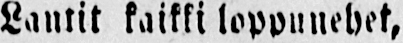Lantit kaikki loppunehet,
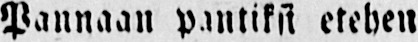Pannaan pantiksi etehen
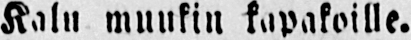Kalu muukin kapakoille.
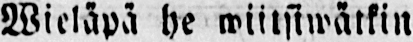Wieläpä he wiilsiwätkin
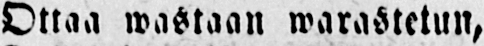Ottaa wastaan warastetun,
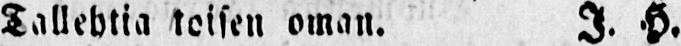Tallehtia toisen oman. I. H.
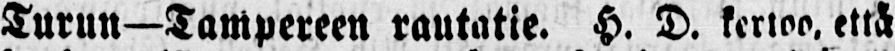Turun—Tampereen rautatie. H. D. kertoo, että
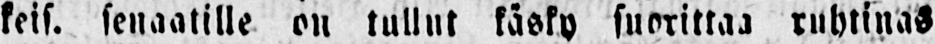keis. senaatille on tullut käsky suorittaa ruhtinas
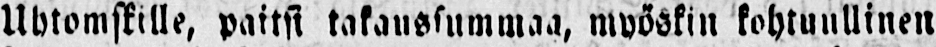Uhtomskille, paitsi takaussummaa, myöskin kohtuullinen
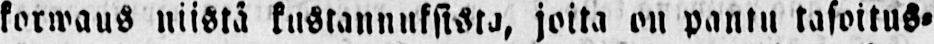korwaus niistä kustannksista, joita on pantu tasoitus-
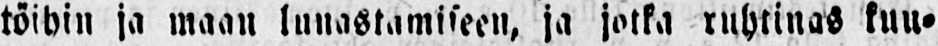töihin ja maan lunastamiseen, ja jotka ruhtinas kuu-
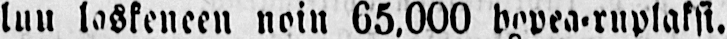luu laskeneen noin 65.000 hopea-ruplaksi.
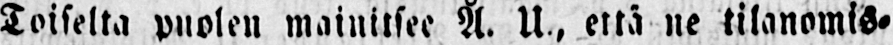Toiselta puolen maiuitsee A. U , että ne tilanomis-
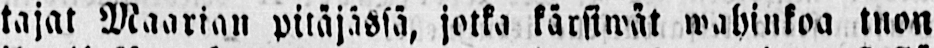tajat Maarian pitäjässä, jotka kärsiwät wahinkoa tuon
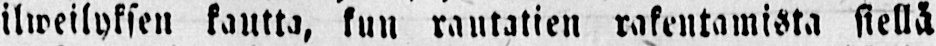ilweilyksen kautta, kun rautatien rakentamista siellä
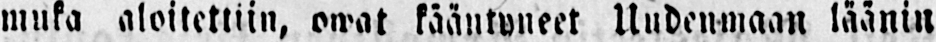muka aloitettiin, owat kääntvneet Uudenmaan läänin
